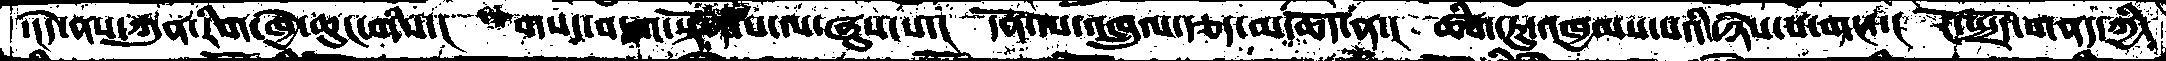་།དེ་ནས་ཀུན་རིག་ཁྱེ་ཆུང་གིས་།  གསང་བདག་སྟོན་པ་ལ་ཞུས་པ་།  དོན་ལ་འཁྲུལ་རྩད་མ་ཆོད་ན་།  ཚིག་ཏུ་འཁྱམས་པའི་ཉེས་པ་གང་་།  ངོ་སྤྲོད་གནད་ཀྱི་
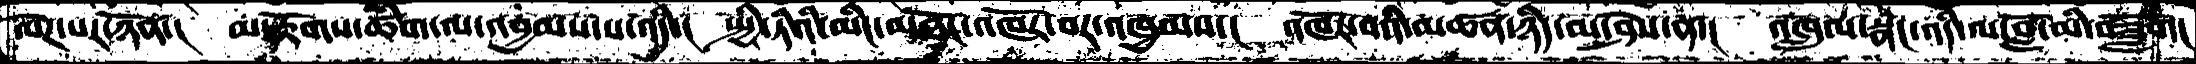ལེཌ་པར་ཉོན་།  མ་རྟོགས་ཚིག་ལ་འབྱམས་པ་འདི་།  སྤྱི་ཏིའི་མིང་མཐོོང་འཁོར་བར་འཁྱམས་།  འཁོར་བའི་མཚན་ཉིད་མ་ཤེས་ན་།  འཁྲུལ་སྣང་འདི་ལ་བློ་མི་བཟློག།
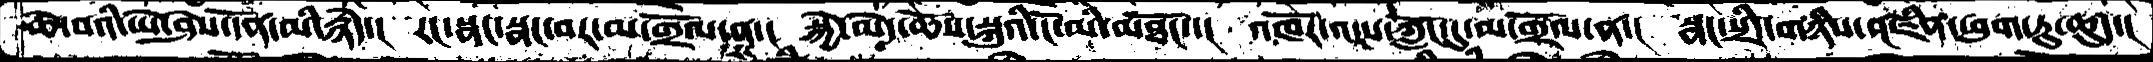ཆེ་བའི་ཡེ་ཤེས་དོན་མི་རྙེད་།  རང་སྣང་སྣང་བར་མ་གྲོལ་ན་།  སྐྱེ་མེད་ཆོས་སྐུའི་ངོ་མི་མཐོང་་།  འཁོར་འདས་ཀློང་དུ་མ་གྲོལ་ན་།  སྣང་སྲིད་གཉིས་འཛིན་ཕུག་ཏུ་ཆུད་།
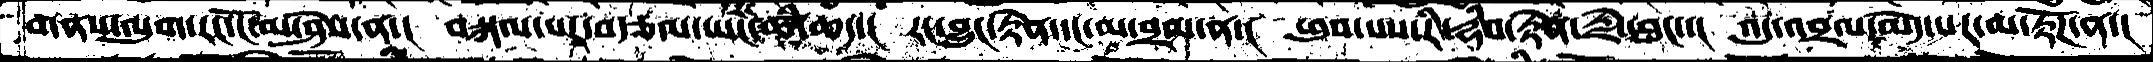གནས་ལུག་རང་ངོ་མ་ཤེས་ན་། བསྐལ་པར་བརྩལ་ཡང་རང་ཚི་ཆད་། རང་བྱུང་རྟེན་དང་མ་བྲམ་ན་། ཕུབ་པས་རི་རྡིབ་རྟེན་རྗེ་ཐང་་། འདུ་འབྲལ་མེད་པར་མ་རྟོཌ་ན་།
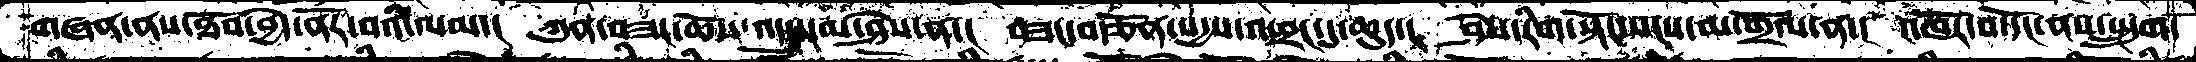གཞན་ནས་ཐོབ་བྱེད་ནོར་བའི་ལམ་།  ཀུན་བཟང་ཆོས་འདུས་མ་ཤེས་ན་།  བཟང་བརྩོན་སདྱས་འཕྲང་དུ་ཆུད་།  ཤེས་རིག་སྟོང་སངས་མ་གྲོལ་ན་།  འཁོར་བ་དོང་ནས་སྤྲུག་
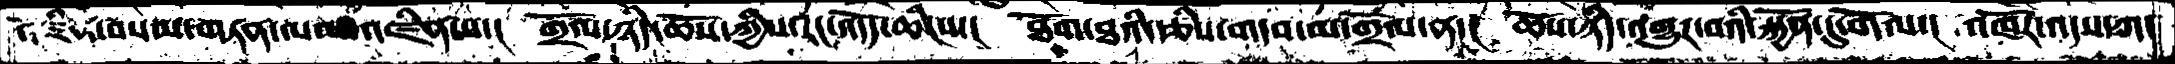འཛིན་བསམ་གཏན་ལམ་འཛིན་པ་། གྲོལ་ཉིད་ཆོས་ཀྱིས་རང་འདོད་ཆིངས་། ཐོག་ཐའི་རྩིས་གདབ་མ་གྲོལ་ན་། ཆོས་ཉིད་འགྱུར་བའི་སྐྱོན་དུ་གོལ་། འཁོར་འདས་ཀ་
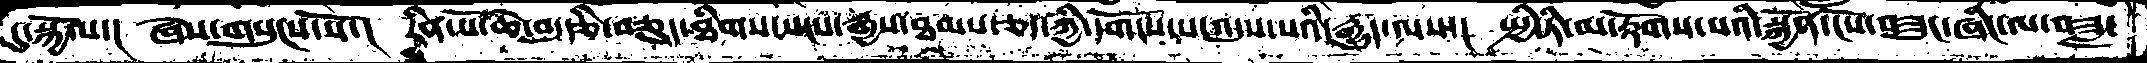དུ་སྐྱོལ་།  ཞེས་གསུངས་སོ་།  རིན་པོ་ཆེ་བདུདཅི་བཅུད་ཐིགས་སངས་རྒྱས་ཐམས་ཅད་ཀྱི་དགོངས་པ་འདུས་པའི་རྒྱུད་ལས་།  སྤྱི་ཏི་མ་རྟོགས་པའི་སྐྱོན་ངོས་བཟུང་ཞིང་ལ་བཟླ་
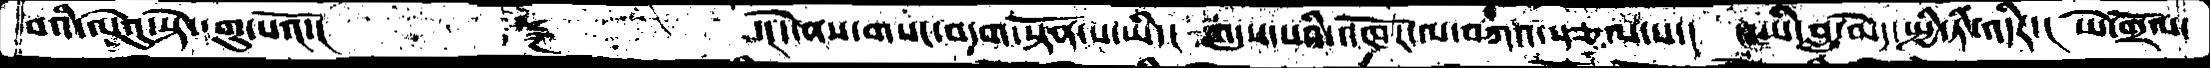བའི་ལེའུ་སྟེ་དགུ་པའོ་།   ༈   ་།དེ་ནས་གསང་བདག་སྟོན་པ་ཡི་།  འདུས་པའི་འཁོར་ལ་བཀའ་སྩལ་པ་། ང་ཡི་བླ་མེད་སྤྱི་ཏི་འདིར་། ཡེ་གྲོལ་
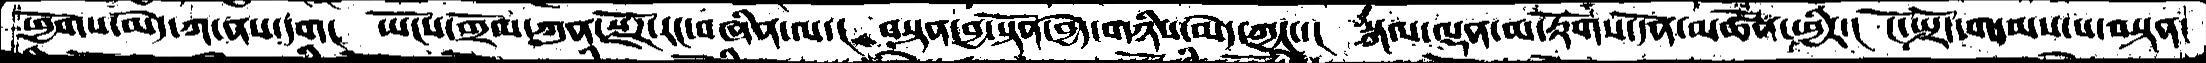ཕྱོགས་མེད་ཀ་ནས་དག། ཡོངས་གྲོལ་ཀུན་སྫོཌ་རང་བཞིན་ལ་།  བསྟན་བྱ་སྟོན་བྱེད་གཉིས་མེད་ཀྱང་་།  སྐལ་ལྡན་མ་རྟོགས་དོན་མཚོན་ཕྱིར་།  ངོ་སྤྲོད་གདམས་པ་བསྟན་
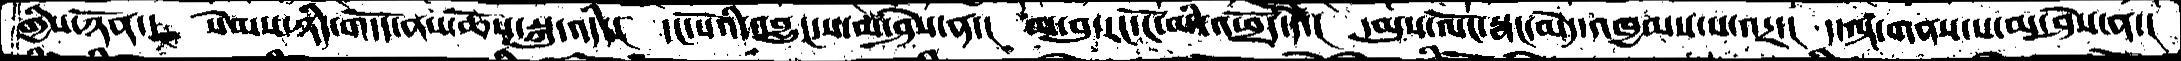གྱིས་ཉོན་།  སེམས་ཉིད་གདོད་ནས་ཆོས་སྐུ་འདི་།  དང་པོའི་འབྱུང་ས་མ་ཤེས་ན་།  མ་བུ་རང་ངོ་མི་འཕྲོད་དེ་།  དམུས་ལོང་སྣང་མེད་འཁྱམས་པ་འདྲ་།  ད་ལྟ་གནས་པ་མ་ཤེས་ན་།
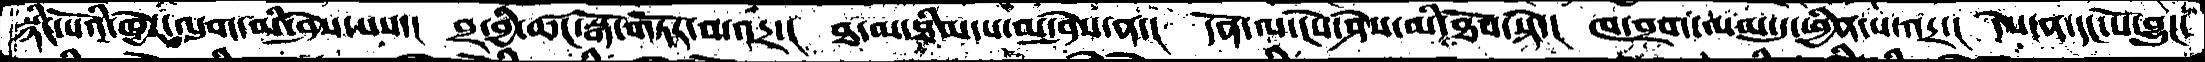སྙིང་པོའི་ཁྱེར་ལུག་མི་ཤེས་པས་།  བྲ་བྱི་ཚང་སྒོ་གཏོར་མ་འདྲ་།  ཐ་མ་ཐིམ་པ་མ་ཤེས་ན་།  དོན་ལ་ངེས་ཤེས་མི་ཐོབ་སྟེ་།  ཁ་བྲག་ལམ་དུ་ཕྱིན་པ་འདྲ་།  དེས་ན་དང་པོ་བྱུང་
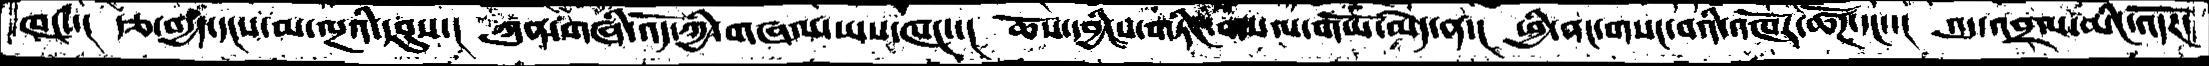ཁང་་། རྩ་བདྱད་དངས་མ་ལྔའི་དབུས་། ཀུན་གཞི་འོད་ཀྱི་གཞལ་ཡས་ཁང་་། ཆོས་དབྱིངས་གཏིང་གསལ་གཡོ་མེད་ན་། ཕྱི་ནང་གསང་བའི་འཁོར་ཚོཌ་དང་་། འདུ་འབྲལ་མིང་འདོར་
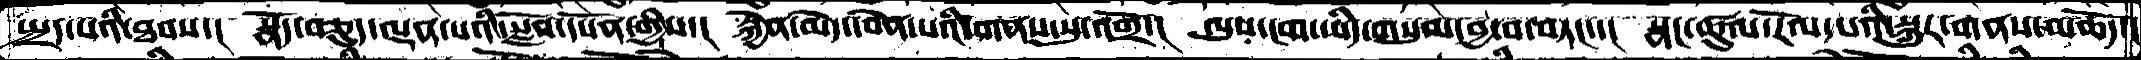སྤྲད་པའི་ཐབས་།  སྣོད་བཅུད་ལྡན་པའི་སློབ་དཔོན་གྱིས་།  སྐྱེན་མེད་དབེན་པའི་གནས་སུ་འགྲོ་།   ལུས་ངག་ཡིད་གསུམ་བྱ་བ་བཏང་།  སྣང་ཚུལ་རོལ་པའི་སྐུར་གནས་མཆོད་།
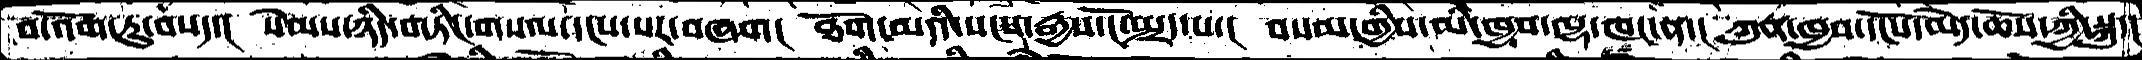བ་འོག་ཏུ་བསད་།  སེམས་ཉིད་གཏིང་གསལ་དངས་པར་བཞག།  ཐོག་མའི་སངས་རྒྱས་ངོ་སྤྲད་པ་།  བསམ་གྱིས་མི་ཁྱབ་ལྷ་ཁང་ན་།  ཀུན་ཁྱབ་དངོས་མེད་ཆོས་ཀྱི་སྐུ་།
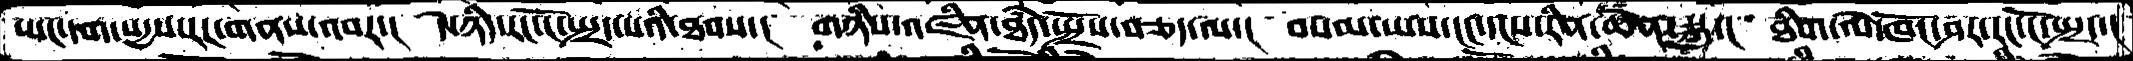ཡང་དག་སདྱས་རང་གནས་འབར་།  དེ་ཉིད་རང་ངོ་སྤྲད་པའི་ཐབས་།  གཉིས་འཛིན་ཐཾད་སྤྲོས་བཅད་ལ་།  བསམ་ཡས་ངང་དངས་རིན་ཆེན་སྐུ་།  ཐིག་ལེ་ཁོང་ཤར་རང་ངོ་སྤྲད་།
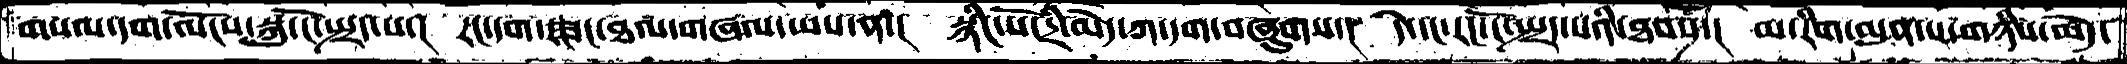གསལ་དག་ལོངས་སྐུ་ངོ་སྤྲད་པ་།  རང་དག་ཟང་ཐལ་གཞལ་ཡས་ན་།  སྙིང་པོ་དྲི་མེད་ཀ་དག་བཞུགས་།  དེ་དང་རང་ངོ་སྤྲད་པའི་ཐབས་།  མ་རིག་མུན་པ་གཉིས་མེད་
